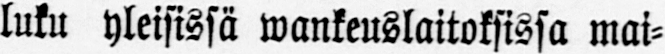luku yleisissä wankeuslaitoksissa mai-
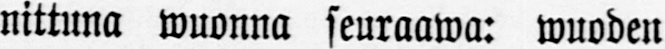nittuna wuonna seuraawa: wuoden
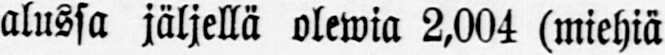alussa jäljellä olewia 2,004 (miehiä
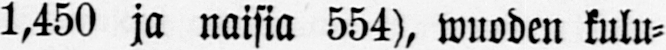1,450 ja naisia 554), wuoden kulu-
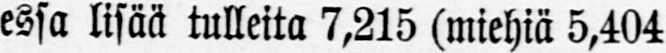essa lisää tulleita 7,215 (miehiä 5,404
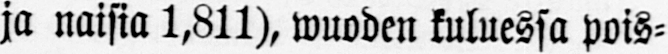ja naisia 1,811), wuoden kuluessa pois-
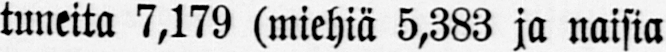tuneita 7,179 (miehiä 5,383 ja naisia
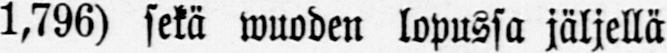1,796) sekä wuoden lopussa jäljellä
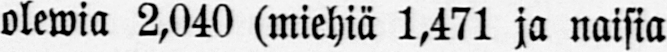olewia 2,040 (miehiä 1,471 ja naisia
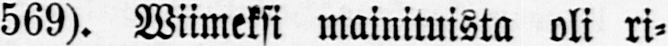569). Wiimeksi mainituista oli ri-
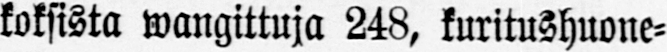koksista vangittuja 248, kuritushuone-
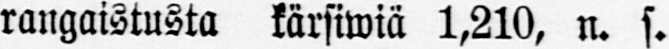rangaistusta kärsiwiä 1,210, n. s.
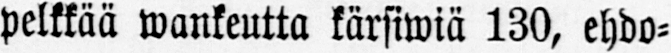pelkkää vankeutta kärsiviä 130, ehdo-
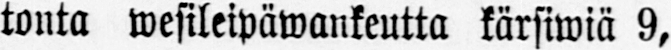tonta wesileipäwankeutta kärsiwiä 9,
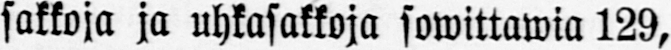sakkoja ja uhkasakkoja sowittawia 129,
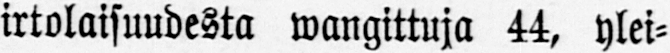irtolaisuudesta wangittuja 44, ylei-
